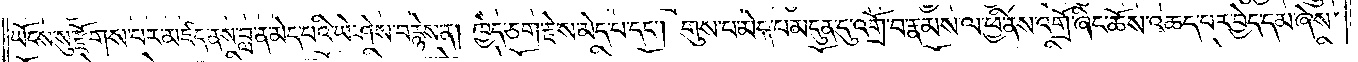ཡོངས་སུ་རྫོགས་པར་མཛད་ནས་བླ་ན་མེད་པའི་ཡེ་ཤེས་བརྙེས་ན། ཁྱེད་ཅག་རྗེས་མེད་པ་དང༌། གུས་པ་མེད་པ་མདུན་དུ་འགྲོ་བ་རྣམས་ལ་ཕྱི་ནས་འགྲོ་ཞིང་ཆོས་འཆད་པར་བྱེད་དམ་ཞེས་
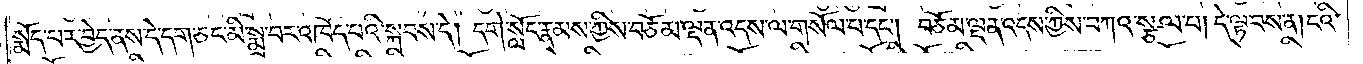སྨོད་པར་བྱེད་ནས་དེ་དག་ཅང་མི་སྨྲ་བར་འཁོད་པའི་སྐབས་དེ། དགེ་སློང་རྣམས་ཀྱིས་བཅོམ་ལྡན་འདས་ལ་གསོལ་པ་དང༌། བཅོམ་ལྡན་འདས་ཀྱིས་བཀའ་སྩལ་པ། དེ་ལྟ་བས་ན། ངའི་
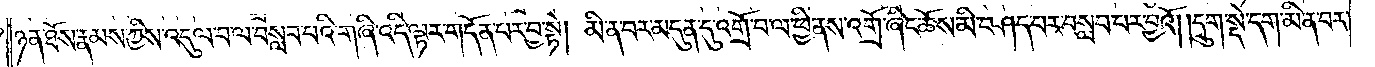ཉན་ཐོས་རྣམས་ཀྱིས་འདུལ་བ་ལ་བསླབ་པའི་གཞི་འདི་ལྟར་གདོན་པར་བྱ་སྟེ། མི་ན་བར་མདུན་དུ་འགྲོ་བ་ལ་ཕྱི་ནས་འགྲོ་ཞིང་ཆོས་མི་བཤད་པར་བསླབ་པར་བྱའོ། །དྲུག་སྡེ་དག་མི་ན་བར་
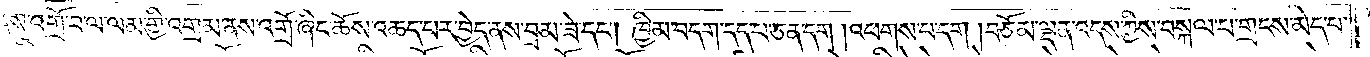ལམ་ནས་འགྲོ་བ་ལ་ལམ་གྱི་འགྲམ་ནས་འགྲོ་ཞིང་ཆོས་འཆད་པར་བྱེད་ནས་བྲམ་ཟེ་དང༌། ཁྱིམ་བདག་དད་པ་ཅན་དག །འཕགས་པ་དག །བཅོམ་ལྡན་འདས་ཀྱིས་བསྐལ་པ་གྲངས་མེད་པ་
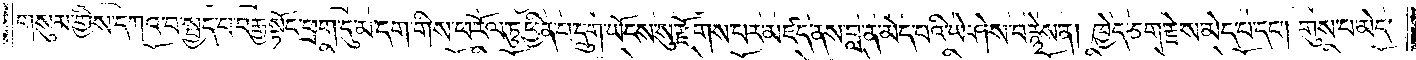གསུམ་གྱིས་དཀའ་བ་སྤྱད་པ་བརྒྱ་སྟོང་ཕྲག་དུ་མ་དག་གིས་ཕ་རོལ་ཏུ་ཕྱིན་པ་དྲུག་ཡོངས་སུ་རྫོགས་པར་མཛད་ནས་བླ་ན་མེད་པའི་ཡེ་ཤེས་བརྙེས་ན། ཁྱེད་ཅག་རྗེས་མེད་པ་དང༌། གུས་པ་མེད་
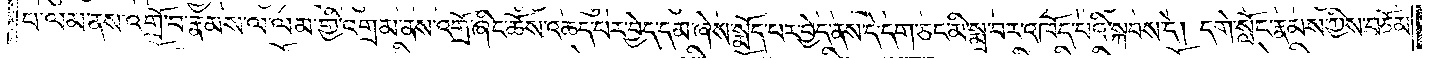པ་ལམ་ནས་འགྲོ་བ་རྣམས་ལ་ལམ་གྱི་འགྲམ་ནས་འགྲོ་ཞིང་ཆོས་འཆད་པར་བྱེད་དམ་ཞེས་སྨོད་པར་བྱེད་ནས་དེ་དག་ཅང་མི་སྨྲ་བར་འཁོད་པའི་སྐབས་དེ། དགེ་སློང་རྣམས་ཀྱིས་བཅོམ་
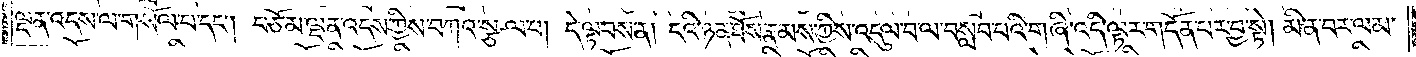ལྡན་འདས་ལ་གསོལ་པ་དང༌། བཅོམ་ལྡན་འདས་ཀྱིས་བཀའ་སྩལ་པ། དེ་ལྟ་བས་ན། ངའི་ཉན་ཐོས་རྣམས་ཀྱིས་འདུལ་བ་ལ་བསླབ་པའི་གཞི་འདི་ལྟར་གདོན་པར་བྱ་སྟེ། མི་ན་བར་ལམ་
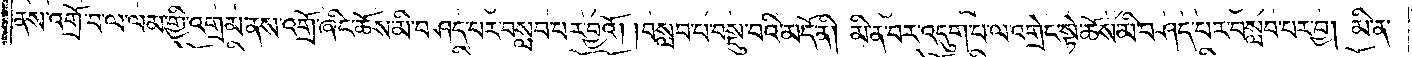ནས་འགྲོ་བ་ལ་ལམ་གྱི་འགྲམ་ནས་འགྲོ་ཞིང་ཆོས་མི་བཤད་པར་བསླབ་པར་བྱའོ། །བསླབ་པ་བསྡུ་བའི་མདོ་ནི། མི་ན་བར་འདུག་པ་ལ་འགྲེང་སྟེ་ཆོས་མི་བཤད་པར་བསླབ་པར་བྱ། མི་ན་
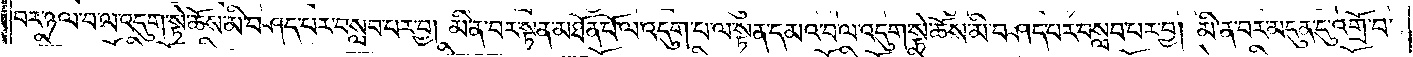བར་ཉལ་བ་ལ་འདུག་སྟེ་ཆོས་མི་བཤད་པར་བསླབ་པར་བྱ། མི་ན་བར་སྟན་མཐོན་པོ་ལ་འདུག་པ་ལ་སྟན་དམའ་བ་ལ་འདུག་སྟེ་ཆོས་མི་བཤད་པར་བསླབ་པར་བྱ། མི་ན་བར་མདུན་དུ་འགྲོ་བ་
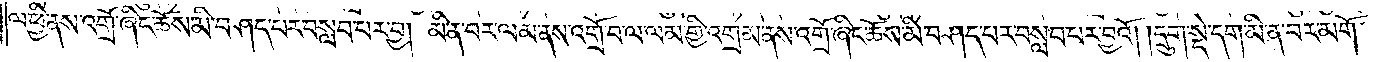ལ་ཕྱི་ནས་འགྲོ་ཞིང་ཆོས་མི་བཤད་པར་བསླབ་པར་བྱ། མི་ན་བར་ལམ་ནས་འགྲོ་བ་ལ་ལམ་གྱི་འགྲམ་ནས་འགྲོ་ཞིང་ཆོས་མི་བཤད་པར་བསླབ་པར་བྱའོ། །དྲུག་སྡེ་དག་མི་ན་བར་མགོ་
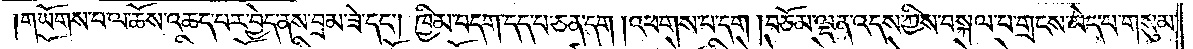གཡོགས་པ་ལ་ཆོས་འཆད་པར་བྱེད་ནས་བྲམ་ཟེ་དང༌། ཁྱིམ་བདག་དད་པ་ཅན་དག །འཕགས་པ་དག །བཅོམ་ལྡན་འདས་ཀྱིས་བསྐལ་པ་གྲངས་མེད་པ་གསུམ་
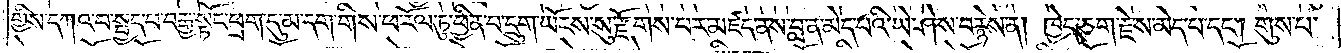གྱིས་དཀའ་བ་སྤྱད་པ་བརྒྱ་སྟོང་ཕྲག་དུ་མ་དག་གིས་ཕ་རོལ་ཏུ་ཕྱིན་པ་དྲུག་ཡོངས་སུ་རྫོགས་པར་མཛད་ནས་བླ་ན་མེད་པའི་ཡེ་ཤེས་བརྙེས་ན། ཁྱེད་ཅག་རྗེ་ས་མེད་པ་དང༌། གུས་པ་
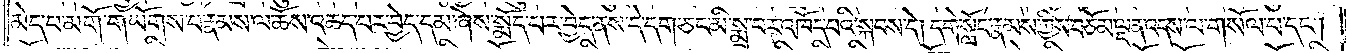མེད་པ་མགོ་གཡོགས་པ་རྣམས་ལ་ཆོས་འཆད་པར་བྱེད་དམ་ཞེས་སྨོད་པར་བྱེད་ནས་དེ་དག་ཅང་མི་སྨྲ་བར་འཁོད་པའི་སྐབས་དེ། དགེ་སློང་རྣམས་ཀྱིས་བཅོམ་ལྡན་འདས་ལ་གསོལ་བ་དང༌།
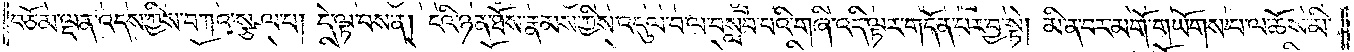བཅོམ་ལྡན་འདས་ཀྱིས་བཀའ་སྩལ་པ། དེ་ལྟ་བས་ན། ངའི་ཉན་ཐོས་རྣམས་ཀྱིས་འདུལ་བ་ལ་བསླབ་པའི་གཞི་འདི་ལྟར་གདོན་པར་བྱ་སྟེ། མི་ན་བར་མགོ་གཡོགས་པ་ལ་ཆོས་མི་
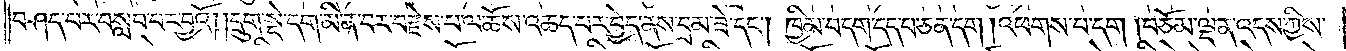བཤད་པར་བསླབ་པར་བྱའོ། །དྲུག་སྡེ་དག་མི་ན་བར་བརྫེས་པ་ལ་ཆོས་འཆད་པར་བྱེད་ནས་བྲམ་ཟེ་དང༌། ཁྱིམ་བདག་དད་པ་ཅན་དག །འཕགས་པ་དག །བཅོམ་ལྡན་འདས་ཀྱིས་
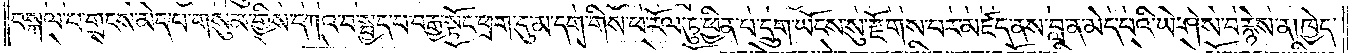བསྐལ་པ་གྲངས་མེད་པ་གསུམ་གྱིས་དཀའ་བ་སྤྱད་པ་བརྒྱ་སྟོང་ཕྲག་དུ་མ་དག་གིས་ཕ་རོལ་ཏུ་ཕྱིན་པ་དྲུག་ཡོངས་སུ་རྫོགས་པར་མཛད་ནས་བླ་ན་མེད་པའི་ཡེ་ཤེས་བརྙེས་ན། ཁྱེད་
